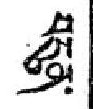བདུན་
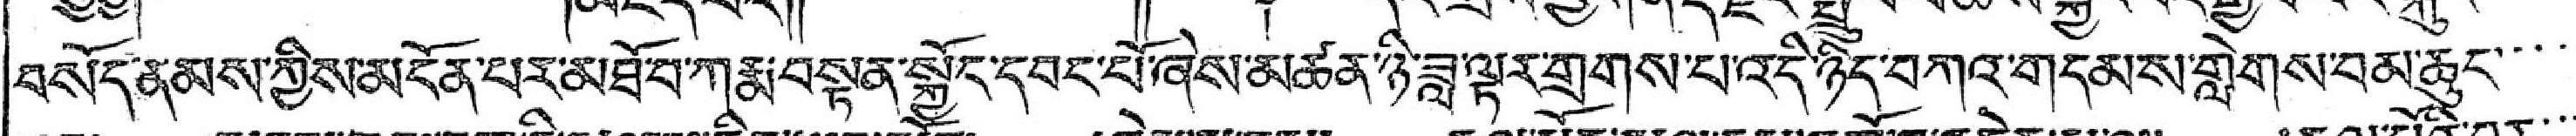བསོད་ནམས་ཀྱིས་མངོན་པར་མཐོ་བ་ཀརྨ་བསྟན་སྐྱོང་དབང་པོ་ཞེས་མཚན་ཉི་ཟླ་ལྟར་གྲགས་པ་འདི་ཉིད་བཀའ་གདམས་གླེགས་བམ་ཆུང་་་་་
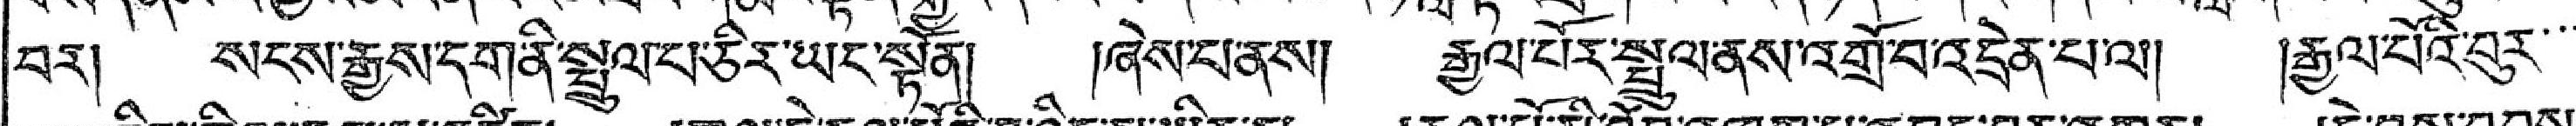བར། སངས་རྒྱས་དག་ནི་སྤྲུལ་པ་ཅིར་ཡང་སྟོན། །ཞེས་པ་ནས། རྒྱལ་པོར་སྤྲུལ་ནས་འགྲོ་བ་འདྲེན་པ་ལ། །རྒྱལ་པོའི་བུར་་་
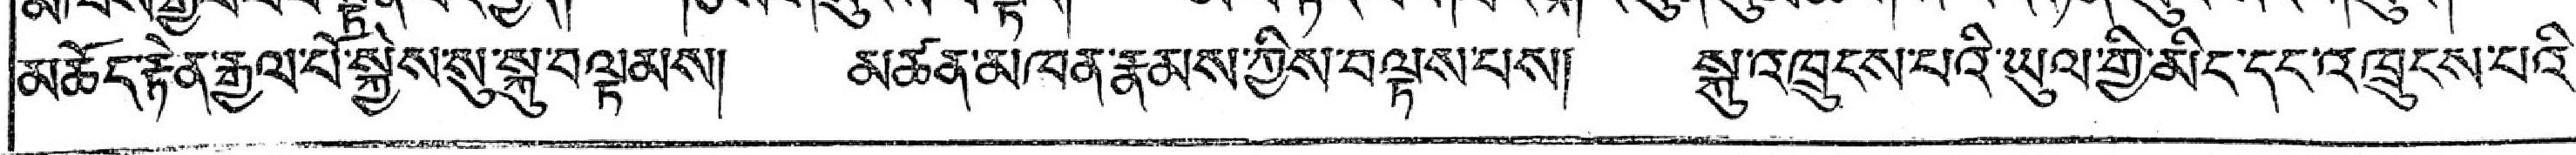མཆོད་རྟེན་རྒྱལ་པོ་སྐྱེས་སུ་སྐུ་བལྟམས། མཚན་མཁན་རྣམས་ཀྱིས་བལྟས་པས། སྐུ་འཁྲུངས་པའི་ཡུལ་གྱི་མིང་དང་འཁྲུངས་པའི་
